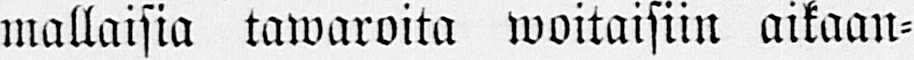mallaisia tawaroita woitaisiin aikaan-
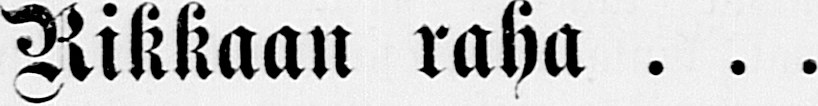Rikkaan raha . . .
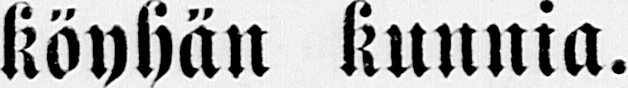köyhän kunnia.
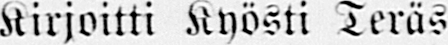Kirjoitti Kyösti Teräs.
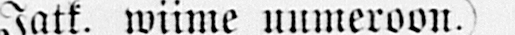(Jatk. wiime uumeroon.)
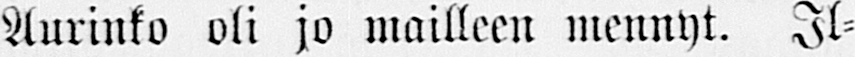Aurinko oli jo mailleen mennyt. Il-
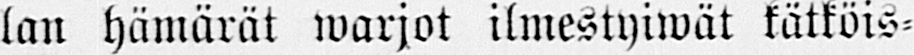lan hämärät warjot ilmestyiwät kätköis-
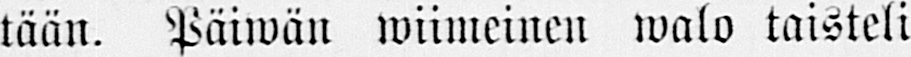tään. Päiwän wiimeinen walo taisteli
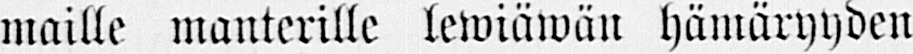maille manterille lewiäwän hämäryyden
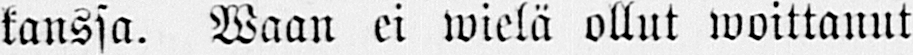kanssa. Waan ei wielä ollut woittanut
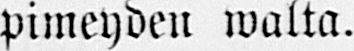pimeyden walta.
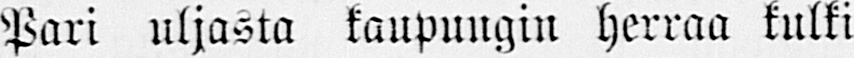Pari uljasta kaupungin herraa kulki
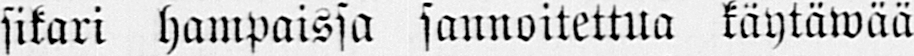sikari hampaissa sannoitettua käytäwää
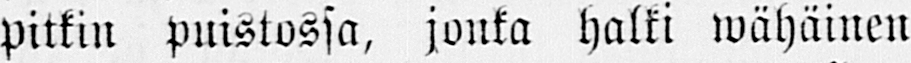pitkin puistossa, jonka halki wähäinen
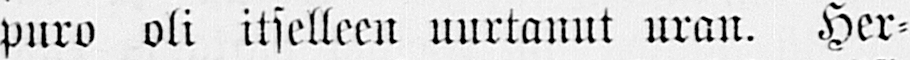puro oli itselleen uurtanut uran. Her-
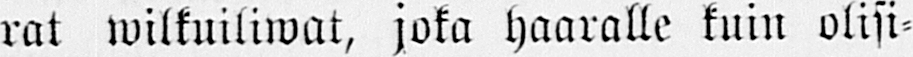rat wilkuiliwat, joka haaralle kuin olisi-
